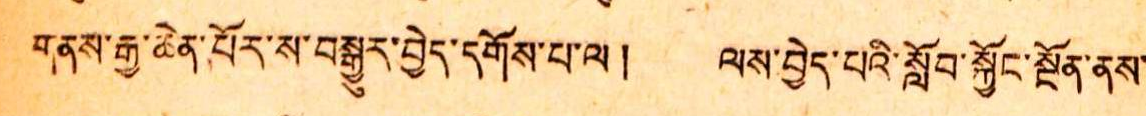གནས་རྒྱ་ཆེན་པོར་ས་བསྒྱུར་བྱེད་དགོས་པ་ལ། ལས་བྱེད་པའི་སློབ་སྐྱོང་སྔོན་ནས་
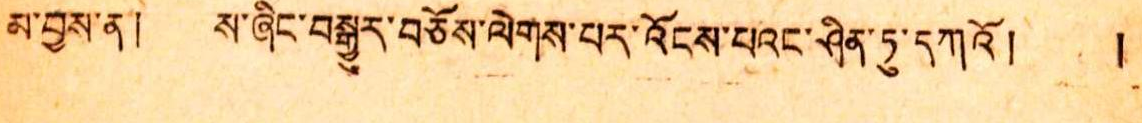མ་བྱས་ན། ས་ཞིང་བསྒྱུར་བཅོས་ལེགས་པར་འོངས་པའང་ཤིན་ཏུ་དཀའོ། །
